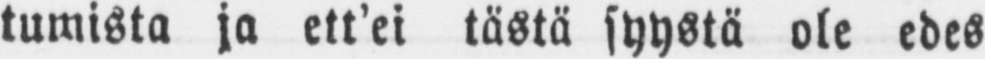tumista ja ett'ei tästä syystä ole edes
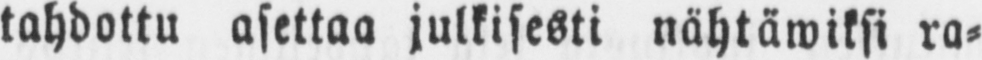tahdottu asettaa julkisesti nähtäwiksi ra-
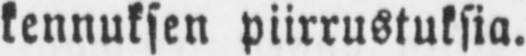kennuksen piirrustuksia.
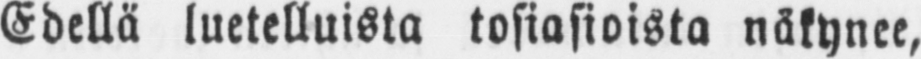Edellä luetelluista tosiasioista näkynee,
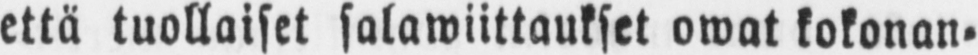että tuollaiset salawiittaukset owat kokonan-
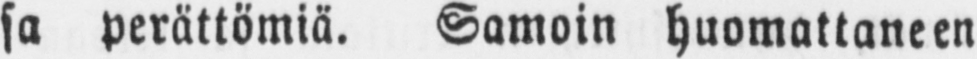sa perättömiä. Samoin huomattaneen
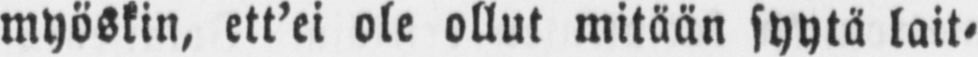myöskin, ett'ei ole ollut mitään syytä lait-
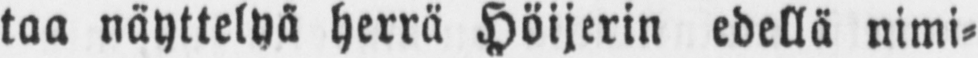taa näyttelyä herrä Höijerin edellä nimi-
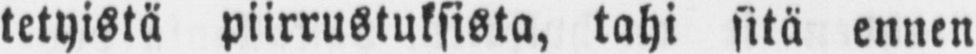tetyistä piirrustuksista, tahi sitä ennen
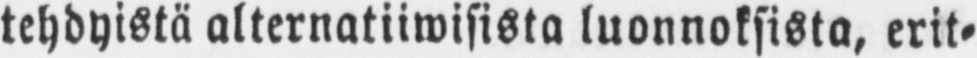tehdyistä alternatiiwisista luonnoksista, erit-
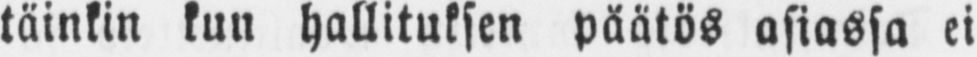täinkin kun hallituksen päätös asiassa ei
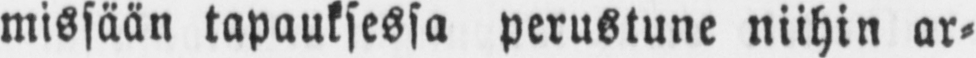missään tapauksessa perustune niihin ar-
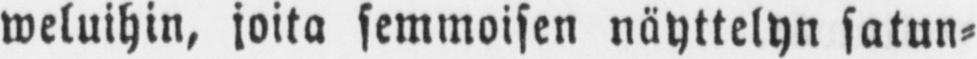weluihin, joita semmoisen näyttelyn satun-
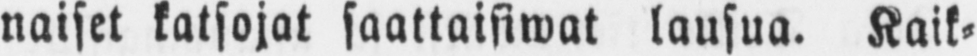naiset katsojat saattaisiwat lausua. Kaik-
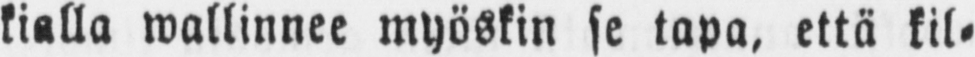kialla wallinnee myöskin se tapa, että kil-
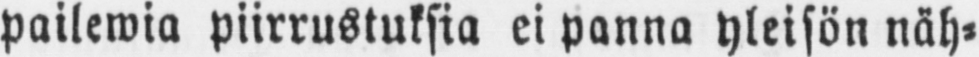pailewia piirrustuksia ei panna yleisön näh-
